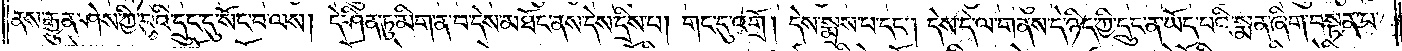ནས་རྒྱུན་ཤེས་ཀྱི་བུའི་དྲུང་དུ་སོང་བ་ལས། དེ་ཤིན་ཏུ་མིག་ན་བ་དེས་མཐོང་ནས་དེས་དྲིས་པ། གང་དུ་འགྲོ། དེས་སྨྲས་པ་དང༌། དེས་དེ་ལ་གནས་དེ་ཉིད་ཀྱི་དྲུང་ན་ཡོད་པའི་སྨན་ཞིག་བསྟན་པ་
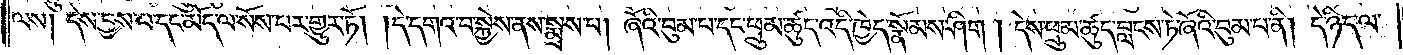ལས། དེས་བྱས་པ་དང་མོད་ལ་སོས་པར་གྱུར་ཏོ། །དེ་དགའ་བ་སྐྱེས་ནས་སྨྲས་པ། ཞོའི་བུམ་པ་དང་ཕྲུམ་ཚུད་འདི་ཁྱེད་སྣོམས་ཤིག །དེས་ཕྲུམ་ཚུད་བླངས་ཏེ་ཞོའི་བུམ་པ་ནི། དེ་ཉིད་ལ་
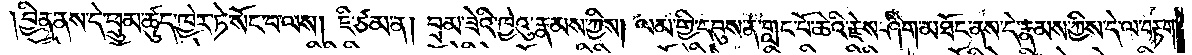།བྱིན་ནས་དེ་ཕྲུམ་ཚུད་ཁྱེར་ཏེ་སོང་བ་ལས། ཇི་ཙམ་ན། བྲམ་ཟེའི་ཁྱེའུ་རྣམས་ཀྱིས། ལམ་གྱི་དབུས་ན་གླང་པོ་ཆེའི་རྗེས་ཤིག་མཐོང་ནས་དེ་རྣམས་ཀྱིས་དེ་ལ་བརྟག་
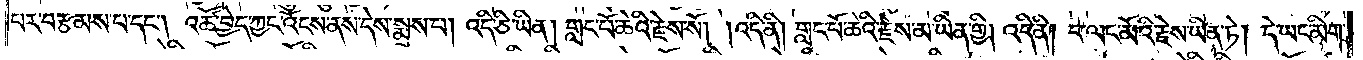པར་བརྩམས་པ་དང༌། འཚོ་བྱེད་ཀྱང་འོངས་ནས་དེས་སྨྲས་པ། འདི་ཅི་ཡིན། གླང་པོ་ཆེའི་རྗེས་སོ། །འདི་ནི། གླང་པོ་ཆེའི་རྗེས་མ་ཡིན་གྱི། འདི་ནི། བ་ལང་མོའི་རྗེས་ཡིན་ཏེ། དེ་ཡང་མིག་
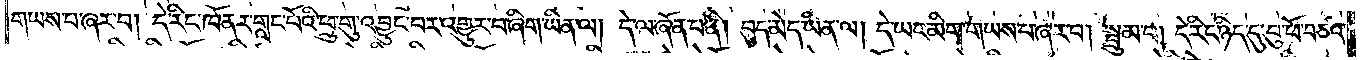གཡས་པ་ཞར་བ། དེ་རིང་ཁོ་ནར་གླང་པོའི་ཕྲུ་གུ་འབྱུང་བར་འགྱུར་བ་ཞིག་ཡིན་ལ། དེ་ལ་ཞོན་པ་ནི། བུད་མེད་ཡིན་ལ། དེ་ཡང་མིག་གཡས་པ་ཞར་བ། སྦྲུམ་པ། དེ་རིང་ཉིད་དུ་བུ་ཕོ་བཅའི་
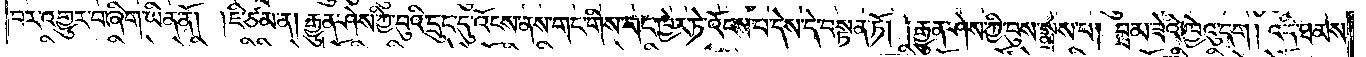བར་འགྱུར་བ་ཞིག་ཡིན་ནོ། །ཇི་ཙམ་ན། རྒྱུན་ཤེས་ཀྱི་བུའི་དྲུང་དུ་འོངས་ནས་གང་གིས་གང་ཁྱེར་ཏེ་འོངས་པ་དེས་དེ་བསྟན་ཏོ། །རྒྱུན་ཤེས་ཀྱི་བུས་སྨྲས་པ། བྲམ་ཟེའི་ཁྱེའུ་དག །འདི་ཐམས་
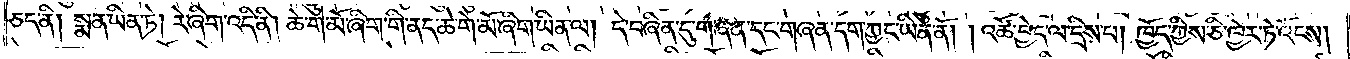ཅད་ནི། སྨན་ཡིན་ཏེ། རེ་ཞིག་འདི་ནི། ཆེ་གེ་མོ་ཞིག་གི་ནད་ཆེ་གེ་མོ་ཞིག་ཡིན་ལ། དེ་བཞིན་དུ་གཞན་དང་གཞན་དག་ཀྱང་ཡིན་ནོ། །འཚོ་བྱེད་ལ་དྲིས་པ། ཁྱོད་ཀྱིས་ཅི་ཁྱེར་ཏེ་འོངས།
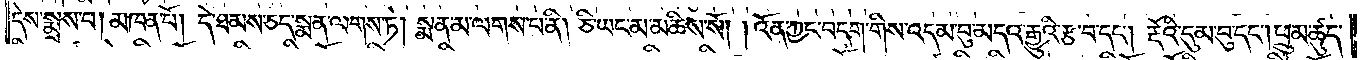དེས་སྨྲས་པ། མཁན་པོ། དེ་ཐམས་ཅད་སྨན་ལགས་ཏེ། སྨན་མ་ལགས་པ་ནི། ཅི་ཡང་མ་མཆིས་སོ། །འོན་ཀྱང་བདག་གིས་འདམ་བུ་མདའ་རྒྱུའི་རྩ་བ་དང༌། རྡོའི་དུམ་བུ་དང༌། ཕྲུམ་ཚུད་
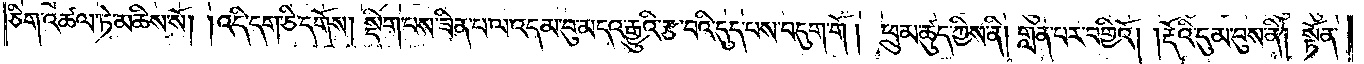ཅིག་འཚལ་ཏེ་མཆིས་སོ། །འདི་དག་ཅི་དགོས། སྡིག་པས་ཟིན་པ་ལ་འདམ་བུ་མདའ་རྒྱུའི་རྩ་བའི་དུད་པས་བདུག་གོ། ཕྲུམ་ཚུད་ཀྱིས་ནི། གླན་པར་བགྱིའོ། །རྡོའི་དུམ་བུས་ནི། སྟོན་
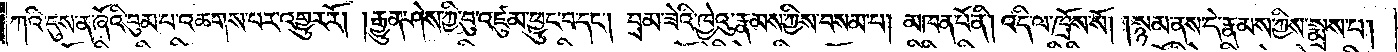ཀའི་དུས་ན་ཞོའི་བུམ་པ་འཆགས་པར་འགྱུར་རོ། །རྒྱུན་ཤེས་ཀྱི་བུ་འཛུམ་ཕྱུང་བ་དང༌། བྲམ་ཟེའི་ཁྱེའུ་རྣམས་ཀྱིས་བསམ་པ། མཁན་པོ་ནི། འདི་ལ་ཁྲོས་སོ། །སྙམ་ནས་དེ་རྣམས་ཀྱིས་སྨྲས་པ།
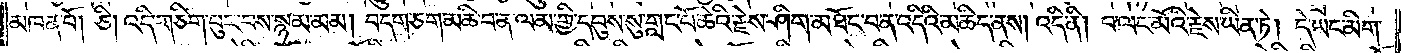མཁན་པོ། ཅི། འདི་གཅིག་པུར་བས་སྙམ་མམ། བདག་ཅག་མཆི་བ་ན་ལམ་གྱི་དབུས་སུ་གླང་པོ་ཆེའི་རྗེས་ཤིག་མཐོང་བ་ན་འདིའི་མཆིད་ནས། འདི་ནི། བ་ལང་མོའི་རྗེས་ཡིན་ཏེ། དེ་ཡང་མིག་
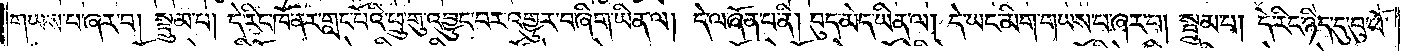གཡས་པ་ཞར་བ། སྦྲུམ་པ། དེ་རིང་ཁོ་ནར་གླང་པོའི་ཕྲུ་གུ་འབྱུང་བར་འགྱུར་བ་ཞིག་ཡིན་ལ། དེ་ལ་ཞོན་པ་ནི། བུད་མེད་ཡིན་ལ། དེ་ཡང་མིག་གཡས་པ་ཞར་བ། སྦྲུམ་པ། དེ་རིང་ཉིད་དུ་བུ་ཕོ་
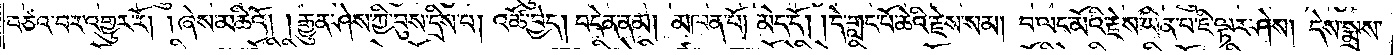བཙའ་བར་འགྱུར་རོ། །ཞེས་མཆིའོ། །རྒྱུན་ཤེས་ཀྱི་བུས་དྲིས་པ། འཚོ་བྱེད། བདེན་ནམ། མཁན་པོ། མེད་དོ། །དེ་གླང་པོ་ཆེའི་རྗེས་སམ། བ་ལང་མོའི་རྗེས་ཡིན་པ་ཇི་ལྟར་ཤེས། དེས་སྨྲས་
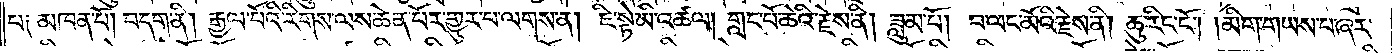པ༑ མཁན་པོ། བདག་ནི། རྒྱལ་པོའི་རིགས་ལས་ཆེན་པོར་གྱུར་པ་ལགས་ན། ཇི་སྟེ་མི་འཚལ། གླང་པོ་ཆེའི་རྗེས་ནི། ཟླུམ་པོ། བ་ལང་མོའི་རྗེས་ནི། ཆུ་རིང་ངོ༌། །མིག་གཡས་པ་ཞར་
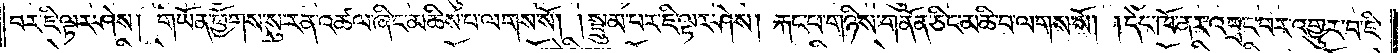བར་ཇི་ལྟར་ཤེས། གཡོན་ཕྱོགས་སུ་རན་འཚལ་ཞིང་མཆིས་པ་ལགས་སོ། །སྦྲུམ་པར་ཇི་ལྟར་ཤེས། རྐང་པ་གཉིས་གནོན་ཅིང་མཆི་བ་ལགས་སོ། །དེང་ཁོ་ནར་འབྲང་བར་འགྱུར་བ་ཇི་
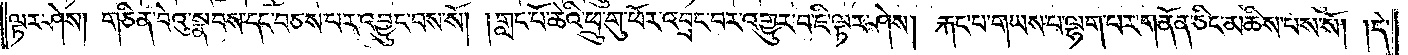ལྟར་ཤེས། གཅིན་བེའུ་སྣབས་དང་བཅས་པར་འབྱུང་བས་སོ། །གླང་པོ་ཆེའི་ཕྲུ་གུ་ཕོར་འབྲང་བར་འགྱུར་བ་ཇི་ལྟར་ཤེས། རྐང་པ་གཡས་པ་ལྷག་པར་གནོན་ཅིང་མཆིས་པས་སོ། །དེ་
